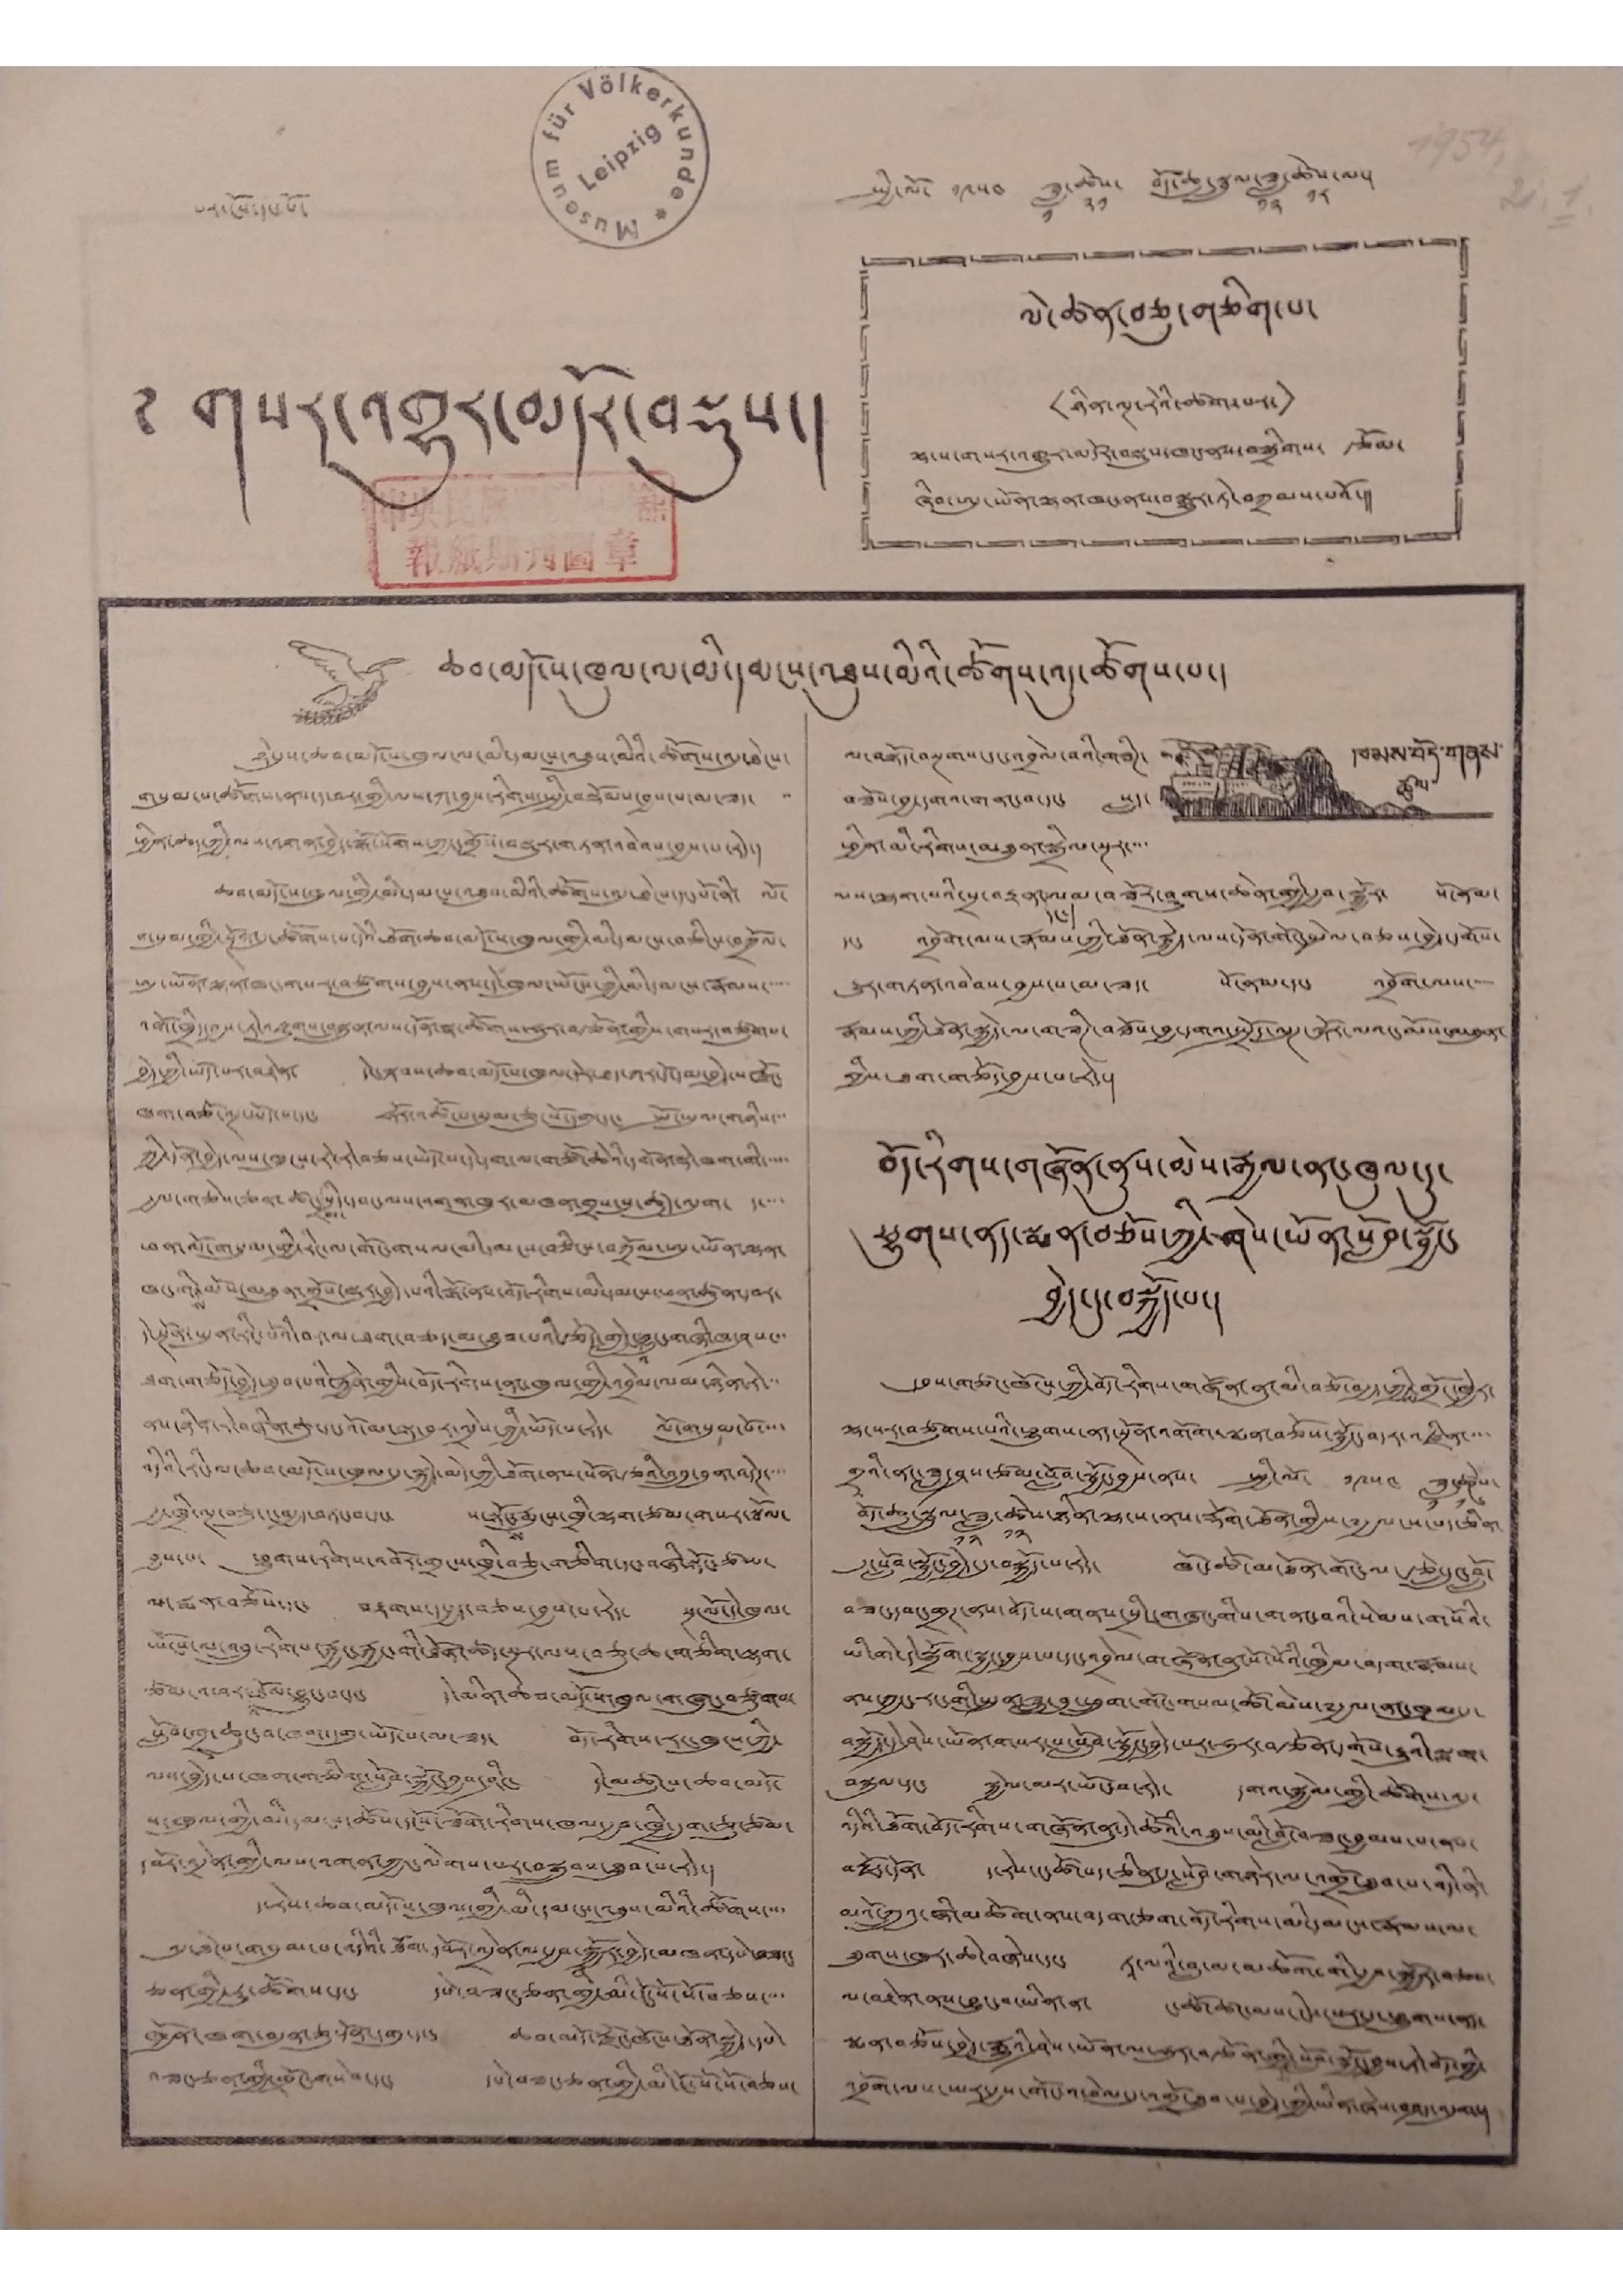པར་ངོས་དང་པོ་ སྤྱི་ལོ་ ༡༩༥༤ ཟླ་
༡
ཚེས་
༢༡
བོད་ཆུ་སྦྲུལ་ཟླ་
༡༢
ཚེས་
༡༢
ལ་
༄ གསར་འགྱུར་མདོར་བསྡུས།
ལེ་ཚན་བཅུ་གཅིག་པ་
<ཉིན་ལྔ་རེའི་ཚག་པར་>
ལྷ་ས་གསར་འགྱུར་མདོར་བསྡུས་ཁང་ནས་བསྒྲིགས་ རྩོམ་
ཞིབ་ཨུ་ཡོན་ལྷན་ཁང་ནས་བསྒྱུར་ཏེ་བཀྲམས་པའོ།
ཆབ་མདོ་ས་ཁུལ་ལ་མི་དམངས་འཐུས་མིའི་ཚོགས་འདུ་ཚོགས་པ།
ཉེ་དུས་ཆབ་མདོ་ས་ཁུལ་ལ་མི་དམངས་འཐུས་མིའི་ཚོགས་འདུ་ཐེངས་
གསུམ་པ་ཚོགས་ན་ད་བར་གྱི་ལས་ཀ་བྱས་རིགས་སྤྱི་བསྡོམས་བྱས་པ་མ་ཟད་ ་་
ཕྱིན་ཆད་ཀྱི་ལས་འགན་བྱེད་སྒོ་སོགས་ཀྱང་དགྲོས་བསྡུར་གཏན་འབེབས་བྱས་པ་རེད།
ཆབ་མདོ་ས་ཁུལ་གྱི་མི་དམངས་འཐུས་མིའི་ཚོགས་འདུ་ཐེངས་དང་པོ་ནི་ ལོ་
གསུམ་གྱི་སྔོན་དུ་ཚོགས་པ་དེའི་ཐོག་ཆབ་མདོ་ས་ཁུལ་གྱི་མི་དམངས་བཅིངས་བགྲོལ་
ཨུ་ཡོན་ལྷན་ཁང་གསར་བཙུགས་བྱས་ནས་དེ་ཁུལ་ཡོངས་ཀྱི་མི་དམངས་རྣམས་་་་་
འགོ་ཁྲིད་བྱས་ཏེ་འཛུགས་བསྐྲུན་ལས་དོན་སྣ་ཚོགས་ཧུར་བརྩོན་གྱིས་གསར་བཙུགས་
བྱེད་ཀྱི་ཡོད་པར་བརྟེན་ དེང་སྐབས་ཆབ་མདོ་ས་ཁུལ་དེར་ཐད་ཀར་དོ་དམ་བྱེད་ས་སྒོ་
ཁག་བཙོ་ལྔ་ཡོད་པ་དང་ ཧོར་འཚོང་པ་སུམ་ཅུ་སོ་དགུ་དང་ སྤོ་ཡུལ་གཉིས་
ཀྱི་དོན་བྱེད་ལས་ཁུངས་རེ་རེ་བཅས་ཡོད་པ་དེ་དག་ལ་གཙོ་ཆེའི་དགོན་སྡེ་ཁཧ་གི་་་་་
རྒྱལ་གཅེས་ཅན་ཚང་མ་སྲིད་དབང་ལས་འགན་ཁུར་མཁན་གྲས་སུ་ཚུད་འདུག་ ད་་་་
ཕན་ལོ་གསུམ་གྱི་རིང་ལ་གོང་གསལ་མི་དམངས་བཅིངས་བཀྲོལ་ཨུ་ཡོན་ལྷན་
ཁང་གིས་མོས་མཐུན་གྲོས་སྡུར་བྱེད་པའི་སྒོ་ནས་བོད་རིགས་མི་དམངས་ཕན་ཚུན་བར་
དེ་སྔོན་ཡུན་རིང་པོའི་བར་ལ་ཐག་བཅད་མ་ཐུབ་པའི་རྩོད་གླེང་
འ
བྱུང་གཞི་ཁ་ཤས་་་
ཐག་གཅོད་བྱེད་ཐུབ་པའི་རྐྱེན་གྱི་བོད་རིགས་ནང་ཁུལ་གྱི་འབྲེལ་ལམ་ཉིན་རེ་་་
ནས་ཉིན་རེ་བཞིན་ཆུ་དང་འོ་མ་ལྟ་བུར་འདྲེས་ཀྱི་ཡོད་པ་རེད་ ལོ་གསུམ་པོ་་་་
འདིའི་རིང་ལ་ཆབ་མདོ་ས་ཁུལ་དུ་སྐྱེ་མེད་ཀྱི་ཐོག་ནས་སོན་རྩའི་འབྲུ་བུན་འདེཊ་་་་
རྒྱ་ཁྲི་ལྔ་བཅུ་ང་བརྒྱད་བཏང་བ་དང་ ས་སྟོང
ས
་རྨུངས་ཁྲི་ལྷག་ཙམ་གསར་སྦོལ་
བྱས་པ་ ཕྱུགས་རིགས་འབོར་གྲངས་ཁྲི་བཅུ་གཅིག་དང་བཞི་སྟོང་ཙམ་
ལ་སྨན་བཅོས་དང་ བརྟགས་དཔྱད་བཅས་བྱས་པ་རེད་ སྔ་ལོ་དེ་ཁུལ་
ཡོངས་ལ་འབྲུ་རིགས་རྐྱང་རྐྱང་གི་ཐོན་ཚད་སྔར་ལས་བཅུ་ཆ་གཅིག་ལྷག་
ཙམ་འཕར་འཐོལ་བྱུང་བ་དང་ དེ་མིན་ཆབ་མདོ་ས་ཁུལ་གཞུང་བཙུགས་
སློབ་གྲྭ་ཆུང་བ་ཁག་དགུ་ཡོད་པ་མ་ཟད་ བོད་རིགས་རང་ཁུངས་ཀྱི་
ལས་བྱེད་པ་ཁག་གཅིག་སློབ་སྐྱོང་བྱས་ཤིང་ དེ་མཚུངས་ཆབ་མདོ་
ས་ཁུལ་གྱི་མི་དམངས་ཚོས་དངོས་ཟོག་རིགས་ཁལ་རྒྱབ་ཁྲི་དྲུག་ཅུ་ཙམ་
དབོར་འདྲེན་གྱི་ལས་འགན་ཀྱང་ལེགས་པར་བསྒྲུབས་ཐུབ་པ་རེད།
ད་རེས་ཆབ་མདོ་ས་ཁུལ་གྱི་མི་དམངས་འཐུས་མིའི་ཚོགས་་་་
འདུ་ཐེངས་གསུམ་པ་འདིའི་ཐོག་དབོར་འདྲེན་ལ་རྒྱབ་སྐྱོར་བྱེད་མཁན་དཔེ་བཟང་
ཅན་གྱི་རྒྱུ་ཚོགས་དང་ དཔེ་བཟང་ཅན་གྱི་མི་ངོ་སོ་སོ་བཅས་་་་
ཁྱོན་ཁག་བདུན་ཅུ་དོན་དགུ་དང་ ཆབ་མདོ་རྫོང་ཁོངས་ཐོན་སྐྱེད་དཔེ་
བཟང་ཅན་གྱི་གྲོང་གསེབ་དང་ དཔེ་བཟང་ཅན་གྱི་མི་ངོ་སོ་སོ་བཅས་
ཁམས་བོད་གནས་
ཚུལ་
ལ་བསྟོད་བསྔགས་དང་འབྲེལ་བའི་གཟིཊ་
བཟོས་བྱ་དགའ་གནང་བ་དང་ སླད་
ཕྱིན་མི་རིགས་མཐུན་སྒྲིལ་སྔར་་་་
ལས་ལྷག་པའི་སྲ་བརྟན་
དང་
ལམ་བཟོར་ཤུགས་ཆེན་གྱི་རྒྱབ་སྐྱོར་ སོ་ནམ་
དང་ འབྲོག་ལས་རྣམས་ཀྱི་ཐོན་སྐྱེད་ལས་དོན་གོང་སྤེལ་བཅས་བྱེད་དགོས་
རྒྱུར་གཏན་འབེབས་བྱས་པ་མ་ཟད་ སོ་ནམ་དང་ འབྲོག་ལས་་་་
རྣམས་ཀྱི་ཐོན་སྐྱེད་ལ་གཟིཊ་བཟོས་བྱ་དགའ་སྤྲོད་ལུཊ་སྐོར་ལའང་མོས་མཐུན་
གྱིས་ཐག་གཅོད་བྱས་པ་རེད།
བོད་རིགས་གཞོན་ནུས་མེས་རྒྱལ་ནང་ཁུལ་དུ་
ཕྱུགས་ནད་སྨན་བཅོས་ཀྱི་ཤེས་ཡོན་སློབ་སྦྱོང་
བྱེད་དུ་བསྐྱོད་པ་།
དབུས་གཙང་ཁོངས་ཀྱི་བོད་རིགས་གཞོན་ནུ་མི་བཅོ་བརྒྱད་ཀྱི་གྲོང་ཁྱེར་
ལྷ་སར་བཙུགས་པའི་ཕྱུགས་ནད་སྔོན་འགོག་སྨན་བཅོས་སྦྱོང་བདར་འཛིན་་་་
གྲྭའི་ནང་ཟླ་ཤས་ཙམ་སློབ་སྦྱོང་བྱས་ནས་ སྤྱི་ལོ་ ༡༩༥༤ ཟླ་
༡
ཚེས་
༡༦
བོད་ཆུ་སྦྲུལ་ཟླ་
༡༢
ཚེས་
༡༢
ཉིན་ལྷ་ས་ནས་རྡོག་ཐོན་གྱིས་༸རྒྱལ་ས་པད་ཅིན་
དུ་སློབ་སྦྱོང་བྱེད་དུ་བསྐྱོད་པ་རེད་ ཁོང་ཚོ་མ་ཐོན་གོང་ལ་རྩེ་དྲུང་བློ་
བཟང་དབང་གྲཊ་ནས་བོད་ས་གནས་སྲིད་གཞུང་གིས་གནང་བའི་སེམས་གསོའི་
ཡི་གེ་དེ་སྒྲོག་སྦྱང་བྱས་པ་དང་འབྲེལ་གཞོན་ནུ་སོ་སོའི་ཁྱིམ་བདག་རྣམས་
ནས་ཀྱང་རང་གི་སྤུན་ཟླ་བུ་ཕྲུག་གོང་གསལ་ཚོ་མེས་༸རྒྱལ་ནང་ཁུལ་དུ་
བསྐྱོད་དེ་ཤེས་ཡོན་གསར་པ་སློབ་སྦྱོང་བྱེད་པར་ཧུར་བརྩོན་དགོས་རྒྱུའི་སྨག་
བསྐུལ་དང་ སྐྱེལ་མར་ཡོང་བ་རེད་ དགའ་སྐྱེལ་གྱི་ཚོགས་འདུ་
འདིའི་ཐོག་བོད་རིགས་གཞོན་ནུ་དེ་ཚོའི་འཐུས་མི་བློ་བཟང་བྱམས་པ་ནས་
བརྗོད་དོན་ ད་རེས་ང་ཚོ་པད་ཅིན་དུ་སློབ་གཉེར་ལ་འགྲོ་ཐུབ་པ་འདི་ནི་
མོའོ་ཀྲུའུ་ཞི་མཆོག་ནས་བདག་ཅག་བོད་རིགས་མི་དམངས་རྣམས་ལ་
ཐུགས་ཁུར་ཆེ་བཞེས་དང་ ཏཱ་ལའི་བླ་མ་མཆོག་གི་རྒྱབ་སྐྱོར་བཅས་
ལ་བརྟེན་ནས་བྱུང་བ་ཡིན་ན་ ང་ཚོ་ཚང་མས་ངེས་པར་དུ་ཕྱུགས་ནད་
སྨན་བཅོས་བྱེད་རྒྱུའི་ཤེས་ཡོན་ལ་ཧུར་བརྩོན་གྱི་སློབ་སྦྱོང་བྱས་ཏེ་བོད་ཀྱི་
འབྲོག་ལས་ཡར་རྒྱས་གོང་འཕེལ་དུ་འགྲོ་ཐུབ་པ་བྱེད་ཀྱི་ཡིན་ཞེས་བཤད་འདུག་།
